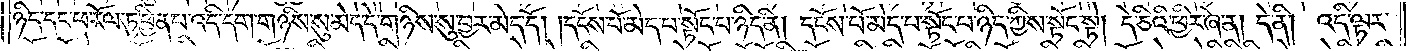ཉིད་དང་ཕ་རོལ་ཏུ་ཕྱིན་པ་འདི་དག་གཉིས་སུ་མེད་དེ་གཉིས་སུ་བྱར་མེད་དོ། །དངོས་པོ་མེད་པ་སྟོང་པ་ཉིད་ནི། དངོས་པོ་མེད་པ་སྟོང་པ་ཉིད་ཀྱིས་སྟོང་སྟེ། དེ་ཅིའི་ཕྱིར་ཞེ་ན། དེ་ནི། འདི་ལྟར་
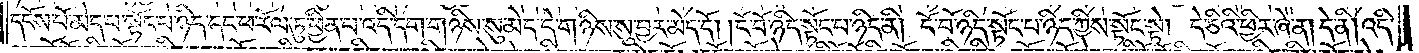དངོས་པོ་མེད་པ་སྟོང་པ་ཉིད་དང་ཕ་རོལ་ཏུ་ཕྱིན་པ་འདི་དག་གཉིས་སུ་མེད་དེ་གཉིས་སུ་བྱར་མེད་དོ། །ངོ་བོ་ཉིད་སྟོང་པ་ཉིད་ནི། ངོ་བོ་ཉིད་སྟོང་པ་ཉིད་ཀྱིས་སྟོང་སྟེ། དེ་ཅིའི་ཕྱིར་ཞེ་ན། དེ་ནི། འདི་
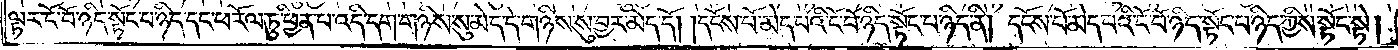ལྟར་ངོ་བོ་ཉིད་སྟོང་པ་ཉིད་དང་ཕ་རོལ་ཏུ་ཕྱིན་པ་འདི་དག་གཉིས་སུ་མེད་དེ་གཉིས་སུ་བྱར་མེད་དོ། །དངོས་པོ་མེད་པའི་ངོ་བོ་ཉིད་སྟོང་པ་ཉིད་ནི། དངོས་པོ་མེད་པའི་ངོ་བོ་ཉིད་སྟོང་པ་ཉིད་ཀྱིས་སྟོང་སྟེ།
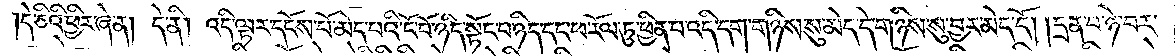དེ་ཅིའི་ཕྱིར་ཞེ་ན། དེ་ནི། འདི་ལྟར་དངོས་པོ་མེད་པའི་ངོ་བོ་ཉིད་སྟོང་པ་ཉིད་དང་ཕ་རོལ་ཏུ་ཕྱིན་པ་འདི་དག་གཉིས་སུ་མེད་དེ་གཉིས་སུ་བྱར་མེད་དོ། །དྲན་པ་ཉེ་བར་
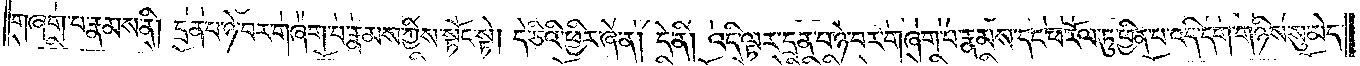གཞག་པ་རྣམས་ནི། དྲན་པ་ཉེ་བར་གཞག་པ་རྣམས་ཀྱིས་སྟོང་སྟེ། དེ་ཅིའི་ཕྱིར་ཞེ་ན། དེ་ནི། འདི་ལྟར་དྲན་པ་ཉེ་བར་གཞག་པ་རྣམས་དང་ཕ་རོལ་ཏུ་ཕྱིན་པ་འདི་དག་གཉིས་སུ་མེད་
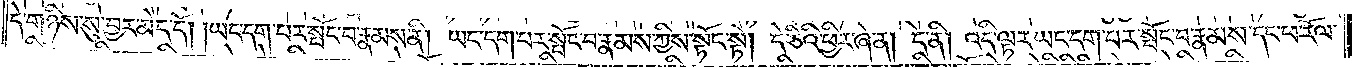དེ་གཉིས་སུ་བྱར་མེད་དོ། །ཡང་དག་པར་སྤོང་བ་རྣམས་ནི། ཡང་དག་པར་སྤོང་བ་རྣམས་ཀྱིས་སྟོང་སྟེ། དེ་ཅིའི་ཕྱིར་ཞེ་ན། དེ་ནི། འདི་ལྟར་ཡང་དག་པར་སྤོང་བ་རྣམས་དང་ཕ་རོལ་
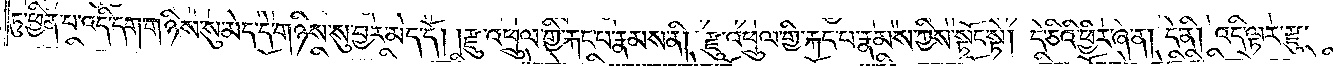ཏུ་ཕྱིན་པ་འདི་དག་གཉིས་སུ་མེད་དེ་གཉིས་སུ་བྱར་མེད་དོ། །རྫུ་འཕྲུལ་གྱི་རྐང་པ་རྣམས་ནི། རྫུ་འཕྲུལ་གྱི་རྐང་པ་རྣམས་ཀྱིས་སྟོང་སྟེ། དེ་ཅིའི་ཕྱིར་ཞེ་ན། དེ་ནི། འདི་ལྟར་རྫུ་
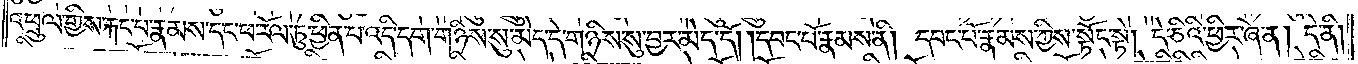འཕྲུལ་གྱིས་རྐང་པ་རྣམས་དང་ཕ་རོལ་ཏུ་ཕྱིན་པ་འདི་དག་གཉིས་སུ་མེད་དེ་གཉིས་སུ་བྱར་མེད་དོ། །དབང་པོ་རྣམས་ནི། དབང་པོ་རྣམས་ཀྱིས་སྟོང་སྟེ། དེ་ཅིའི་ཕྱིར་ཞེ་ན། དེ་ནི།
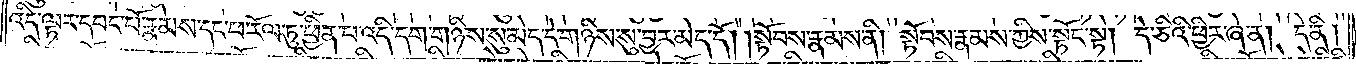འདི་ལྟར་དབང་པོ་རྣམས་དང་ཕ་རོལ་ཏུ་ཕྱིན་པ་འདི་དག་གཉིས་སུ་མེད་དེ་གཉིས་སུ་བྱར་མེད་དོ། །སྟོབས་རྣམས་ནི། སྟོབས་རྣམས་ཀྱིས་སྟོང་སྟེ། དེ་ཅིའི་ཕྱིར་ཞེ་ན། དེ་ནི།
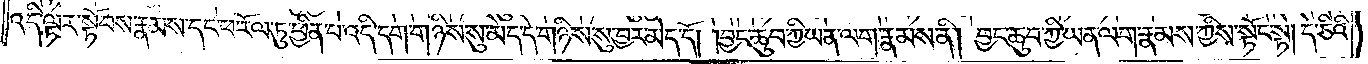འདི་ལྟར་སྟོབས་རྣམས་དང་ཕ་རོལ་ཏུ་ཕྱིན་པ་འདི་དག་གཉིས་སུ་མེད་དེ་གཉིས་སུ་བྱར་མེད་དོ། །བྱང་ཆུབ་ཀྱི་ཡན་ལག་རྣམས་ནི། བྱང་ཆུབ་ཀྱི་ཡན་ལག་རྣམས་ཀྱིས་སྟོང་སྟེ། དེ་ཅིའི་
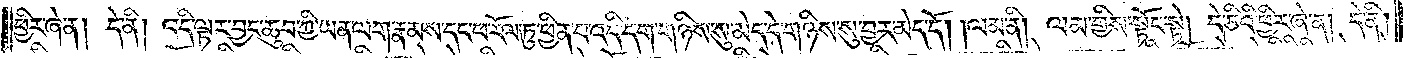ཕྱིར་ཞེ་ན། དེ་ནི། འདི་ལྟར་བྱང་ཆུབ་ཀྱི་ཡན་ལག་རྣམས་དང་ཕ་རོལ་ཏུ་ཕྱིན་པ་འདི་དག་གཉིས་སུ་མེད་དེ་གཉིས་སུ་བྱར་མེད་དོ། །ལམ་ནི། ལམ་གྱིས་སྟོང་སྟེ། དེ་ཅིའི་ཕྱིར་ཞེ་ན། དེ་ནི།
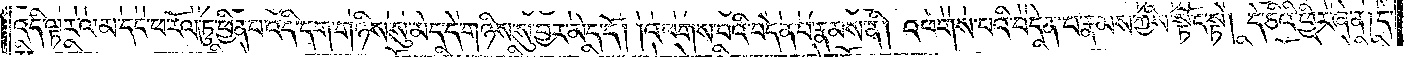འདི་ལྟར་ལམ་དང་ཕ་རོལ་ཏུ་ཕྱིན་པ་འདི་དག་གཉིས་སུ་མེད་དེ་གཉིས་སུ་བྱར་མེད་དོ། །འཕགས་པའི་བདེན་པ་རྣམས་ནི། འཕགས་པའི་བདེན་པ་རྣམས་ཀྱིས་སྟོང་སྟེ། དེ་ཅིའི་ཕྱིར་ཞེ་ན། དེ་
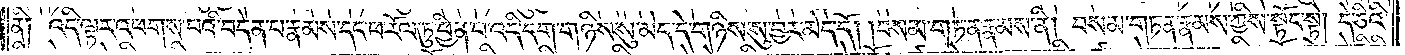ནི༑ འདི་ལྟར་འཕགས་པའི་བདེན་པ་རྣམས་དང་ཕ་རོལ་ཏུ་ཕྱིན་པ་འདི་དག་གཉིས་སུ་མེད་དེ་གཉིས་སུ་བྱར་མེད་དོ། །བསམ་གཏན་རྣམས་ནི། བསམ་གཏན་རྣམས་ཀྱིས་སྟོང་སྟེ། དེ་ཅིའི་
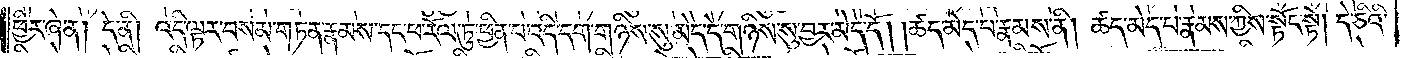ཕྱིར་ཞེ་ན། དེ་ནི། འདི་ལྟར་བསམ་གཏན་རྣམས་དང་ཕ་རོལ་ཏུ་ཕྱིན་པ་འདི་དག་གཉིས་སུ་མེད་དེ་གཉིས་སུ་བྱར་མེད་དོ། །ཚད་མེད་པ་རྣམས་ནི། ཚད་མེད་པ་རྣམས་ཀྱིས་སྟོང་སྟེ། དེ་ཅིའི་
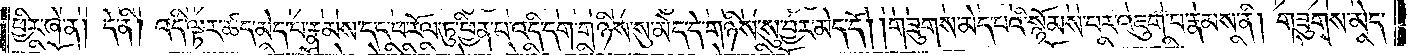ཕྱིར་ཞེ་ན། དེ་ནི། འདི་ལྟར་ཚད་མེད་པ་རྣམས་དང་ཕ་རོལ་ཏུ་ཕྱིན་པ་འདི་དག་གཉིས་སུ་མེད་དེ་གཉིས་སུ་བྱར་མེད་དོ། །གཟུགས་མེད་པའི་སྙོམས་པར་འཇུག་པ་རྣམས་ནི། གཟུགས་མེད་
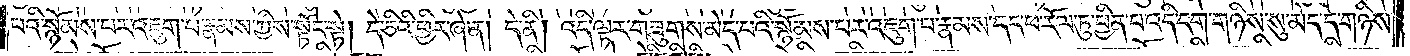པའི་སྙོམས་པར་འཇུག་པ་རྣམས་ཀྱིས་སྟོང་སྟེ། དེ་ཅིའི་ཕྱིར་ཞེ་ན། དེ་ནི། འདི་ལྟར་གཟུགས་མེད་པའི་སྙོམས་པར་འཇུག་པ་རྣམས་དང་ཕ་རོལ་ཏུ་ཕྱིན་པ་འདི་དག་གཉིས་སུ་མེད་དེ་གཉིས་
